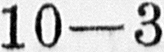10—3
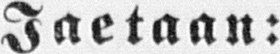Jaetaan:
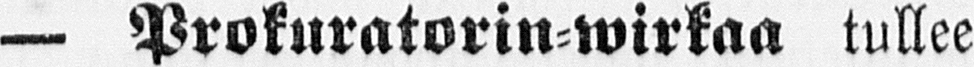— Prokuratorin-wirkaa tullee
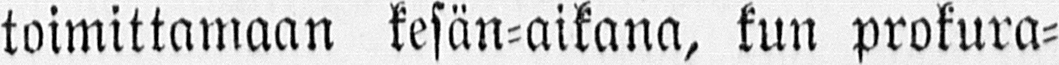toimittamaan kesän-aikana, kun prokura-
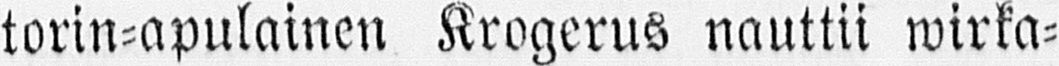torin-apulainen Krogerus nauttii wirka-
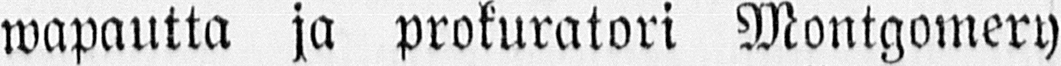wapautta ja prokuratori Montgomery
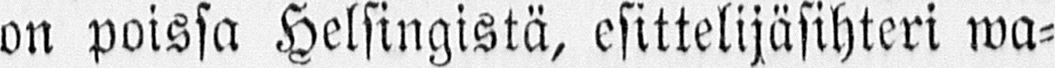on poissa Helsingistä, esittelijäsihteri wa-
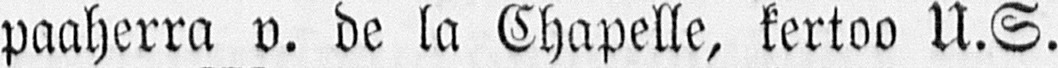paaherra v. de la Chapelle, kertoo U.S.
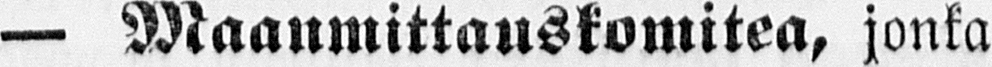— Maanmittauskomitea, jonka
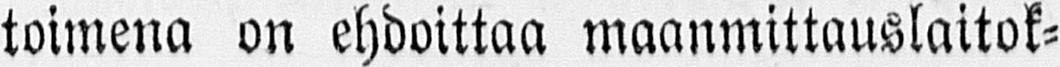toimena on ehdoittaa maanmittauslaitok-
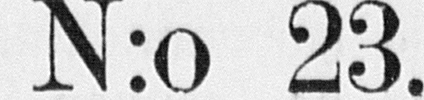N:o 23.
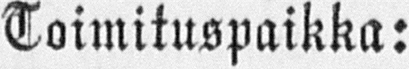Toimituspaikka:
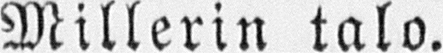Millerin talo.
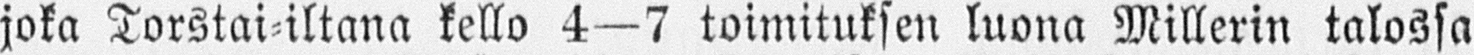joka Torstai-iltana kello 4—7 toimituksen luona Millerin talossa
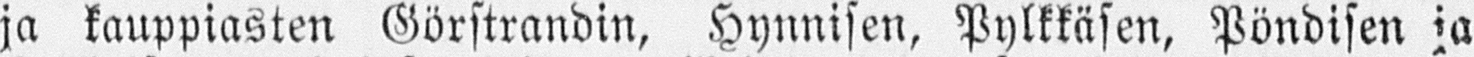ja kauppiasten Görstrandin, Hynnisen, Pylkkäsen, Pöndisen ja
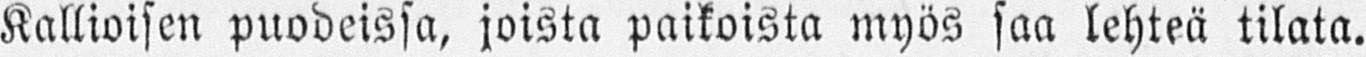Kallioisen puodeissa, joista paikoista myös saa lehteä tilata.
